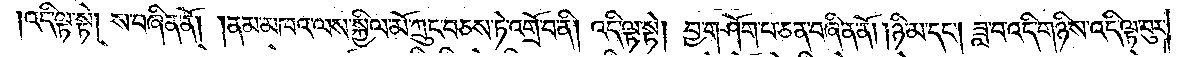འདི་ལྟ་སྟེ། ས་བཞིན་ནོ། །ནམ་མཁའ་ལས་སྐྱིལ་མོ་ཀྲུང་བཅས་ཏེ་འགྲོ་བ་ནི། འདི་ལྟ་སྟེ། བྱ་གཤོག་པ་ཅན་བཞིན་ནོ། །ཉི་མ་དང༌། ཟླ་བ་འདི་གཉིས་འདི་ལྟ་བུར་
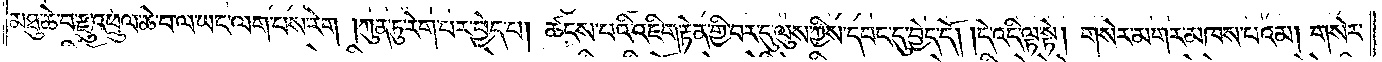མཐུ་ཆེ་བ་རྫུ་འཕྲུལ་ཆེ་བ་ལ་ཡང་ལག་པས་རེག །ཀུན་ཏུ་རེག་པར་བྱེད་པ། ཚངས་པའི་འཇིག་རྟེན་གྱི་བར་དུ་ལུས་ཀྱིས་དབང་དུ་བྱེད་དོ། །དེ་འདི་ལྟ་སྟེ། གསེར་མགར་མཁས་པའམ། གསེར་
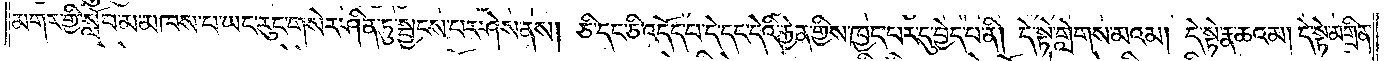མགར་གྱི་སློབ་མ་མཁས་པ་ཡང་རུང་གསེར་ཤིན་ཏུ་སྦྱངས་པར་ཤེས་ནས། ཅི་དང་ཅི་འདོད་པ་དེ་དང་དེའི་རྐྱེན་གྱིས་ཁྱད་པར་དུ་བྱེད་པ་ནི། དེ་སྟེ་གླེགས་མའམ། དེ་སྟེ་རྣ་ཆའམ། དེ་སྟེ་མགྲིན་
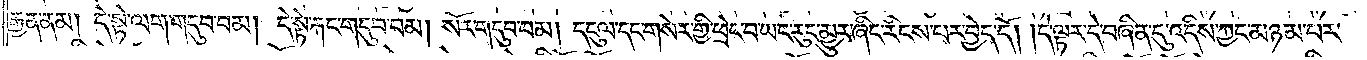རྒྱན་ནམ། དེ་སྟེ་ལག་གདུབ་བམ། དེ་སྟེ་རྐང་གདུབ་བམ། སོར་གདུབ་བམ། དངུལ་དང་གསེར་གྱི་ཕྲེང་བ་ཡང་རུང་མྱུར་ཞིང་རིངས་པར་བྱེད་དོ། །དེ་ལྟར་དེ་བཞིན་དུ་འདིས་ཀྱང་མཉམ་པར་
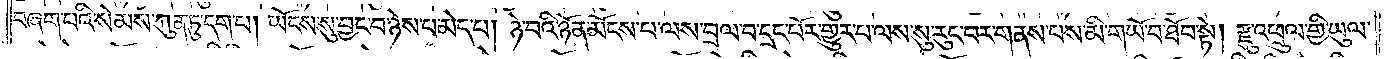བཞག་པའི་སེམས་ཀུན་ཏུ་དག་པ། ཡོངས་སུ་བྱང་བ་ཉེས་པ་མེད་པ། ཉེ་བའི་ཉོན་མོངས་པ་ལས་བྲལ་བ་དྲང་པོར་གྱུར་པ་ལས་སུ་རུང་བར་གནས་པས་མི་གཡོ་བ་ཐོབ་སྟེ། རྫུ་འཕྲུལ་གྱི་ཡུལ་
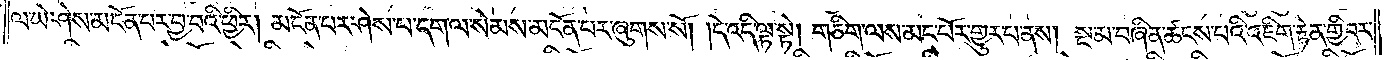ལ་ཡེ་ཤེས་མངོན་པར་བྱ་བའི་ཕྱིར། མངོན་པར་ཤེས་པ་དག་ལ་སེམས་མངོན་པར་ཞུགས་སོ། །དེ་འདི་ལྟ་སྟེ། གཅིག་ལས་མང་པོར་གྱུར་པ་ནས། སྔ་མ་བཞིན་ཚངས་པའི་འཇིག་རྟེན་གྱི་བར་
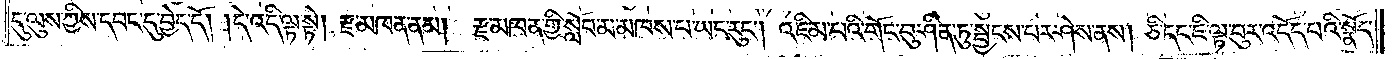དུ་ལུས་ཀྱིས་དབང་དུ་བྱེད་དོ། །དེ་འདི་ལྟ་སྟེ། རྫ་མཁན་ནམ། རྫ་མཁན་གྱི་སློབ་མ་མཁས་པ་ཡང་རུང༌། འཇིམ་པའི་གོང་བུ་ཤིན་ཏུ་སྦྱངས་པར་ཤེས་ནས། ཅི་དང་ཇི་ལྟ་བུར་འདོད་པའི་སྣོད་
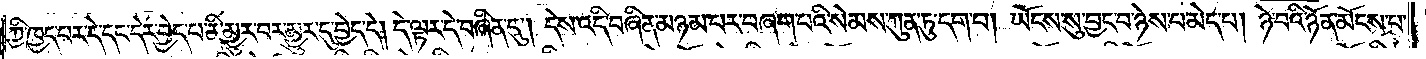ཀྱི་ཁྱད་པར་དེ་དང་དེར་བྱེད་པ་ནི་མྱུར་བར་མྱུར་དུ་བྱེད་དེ། དེ་ལྟར་དེ་བཞིན་དུ། དེས་འདི་བཞིན་མཉམ་པར་བཞག་པའི་སེམས་ཀུན་ཏུ་དག་པ། ཡོངས་སུ་བྱང་བ་ཉེས་པ་མེད་པ། ཉེ་བའི་ཉོན་མོངས་པ་
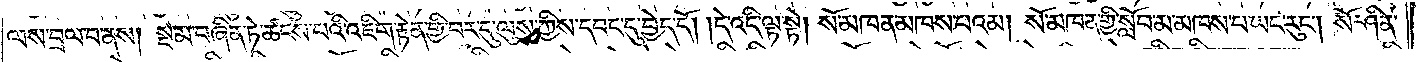ལས་བྲལ་བ་ནས། སྔ་མ་བཞིན་ཏེ་ཚངས་པའི་འཇིག་རྟེན་གྱི་བར་དུ་ལུས་ཀྱིས་དབང་དུ་བྱེད་དོ། །དེ་འདི་ལྟ་སྟེ། སོ་མཁན་མཁས་པའམ། སོ་མཁན་གྱི་སློབ་མ་མཁས་པ་ཡང་རུང༌། སོ་ཤིན་
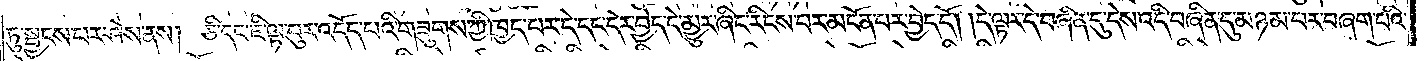ཏུ་སྦྱངས་པར་ཤེས་ནས། ཅི་དང་ཇི་ལྟ་བུར་འདོད་པའི་གཟུགས་ཀྱི་ཁྱད་པར་དེ་དང་དེར་བྱེད་དེ་མྱུར་ཞིང་རིངས་པར་མངོན་པར་བྱེད་དོ། །དེ་ལྟར་དེ་བཞིན་དུ་དེས་འདི་བཞིན་དུ་མཉམ་པར་བཞག་པའི་
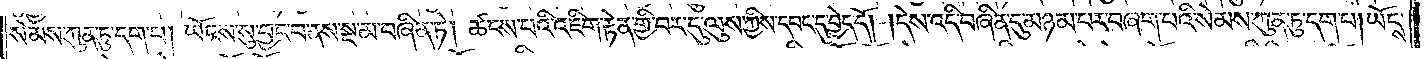སེམས་ཀུན་ཏུ་དག་པ། ཡོངས་སུ་བྱང་བ་ནས་སྔ་མ་བཞིན་ཏེ། ཚངས་པའི་འཇིག་རྟེན་གྱི་བར་དུ་ལུས་ཀྱིས་དབང་དུ་བྱེད་དོ། །དེས་འདི་བཞིན་དུ་མཉམ་པར་བཞག་པའི་སེམས་ཀུན་ཏུ་དག་པ། ཡོངས་
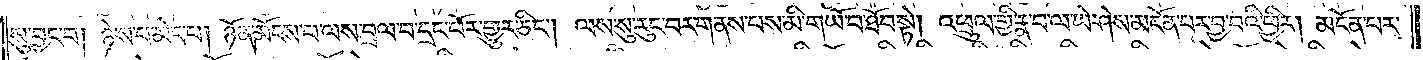སུ་བྱང་བ། ཉེས་པ་མེད་པ། ཉོན་མོངས་པ་ལས་བྲལ་བ་དྲང་པོར་གྱུར་ཅིང༌། ལས་སུ་རུང་བར་གནས་པས་མི་གཡོ་བ་ཐོབ་སྟེ། འཕྲུལ་གྱི་རྣ་བ་ལ་ཡེ་ཤེས་མངོན་པར་བྱ་བའི་ཕྱིར། མངོན་པར་
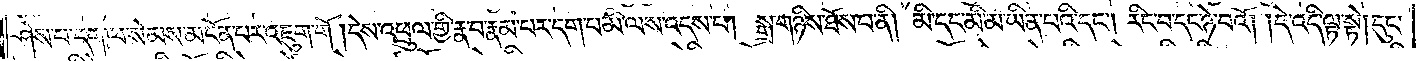ཤེས་པ་དག་ལ་སེམས་མངོན་པར་འཇུག་གོ །དེས་འཕྲུལ་གྱི་རྣ་བ་རྣམ་པར་དག་པ་མི་ལས་འདས་པ། སྒྲ་གཉིས་ཐོས་པ་ནི། མི་དང་མི་མ་ཡིན་པའི་དང༌། རིང་བ་དང་ཉེ་བའོ། །དེ་འདི་ལྟ་སྟེ། དུང་
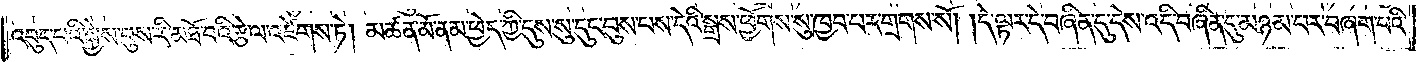འབུད་པའི་སྐྱེས་བུས་རི་མཐོ་བའི་རྩེ་ལ་འཛེགས་ཏེ། མཚན་མོ་ནམ་ཕྱེད་ཀྱི་དུས་སུ་དུང་བུས་པས་དེའི་སྒྲས་ཕྱོགས་སུ་ཁྱབ་པར་གྲགས་སོ། །དེ་ལྟར་དེ་བཞིན་དུ་དེས་འདི་བཞིན་དུ་མཉམ་པར་བཞག་པའི་
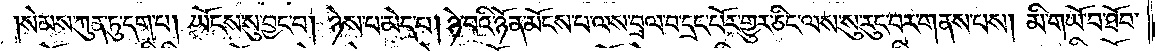སེམས་ཀུན་ཏུ་དག་པ། ཡོངས་སུ་བྱང་བ། ཉེས་པ་མེད་པ། ཉེ་བའི་ཉོན་མོངས་པ་ལས་བྲལ་བ་དྲང་པོར་གྱུར་ཅིང་ལས་སུ་རུང་བར་གནས་པས། མི་གཡོ་བ་ཐོབ་
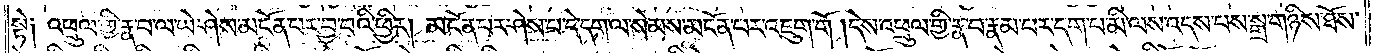སྟེ། འཕྲུལ་གྱི་རྣ་བ་ལ་ཡེ་ཤེས་མངོན་པར་བྱ་བའི་ཕྱིར། མངོན་པར་ཤེས་པ་དེ་དག་ལ་སེམས་མངོན་པར་འཇུག་གོ །དེས་འཕྲུལ་གྱི་རྣ་བ་རྣམ་པར་དག་པ་མི་ལས་འདས་པས་སྒྲ་གཉིས་ཐོས་
